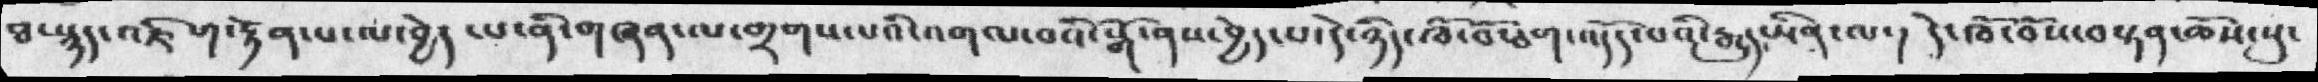ཐ སྙད་འཇིག་རྟེན་པ་ལ་བྱེད་པ་ནི་གཞན་ལ་གྲགས་པའི་འགལ་བའི་སྒོ་ནས་བྱེད་པ་དེ་ཉིད་ཁོ་བོ་ཅག་འདོད་པའི་རྒྱུ་ཡིན་ལ་།  དེ་ཁོ་བོས་བསྟན་ཆོས་སུ་
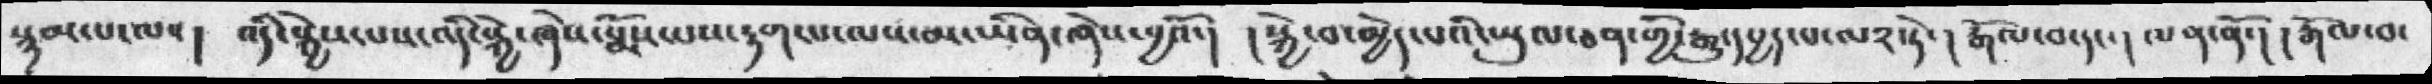སྙམ་པ་ལས།  འདི་སྐྱེས་པས་འདི་སྐྱེ་ཞེས་སྨོས་པས་རྟག་པ་ལས་མ་ཡིན་ཞེས་བྱའོ་།  ། སྐྱེ་བ་མྱེད་པའི་ཡུལ་ཅན་གྱི་རྒྱུ་དཔྱད་པ་ལ༢་ཏེ་།  རྒོལ་བ་དང་། ལན་ནོ་།  རྒོལ་བ་
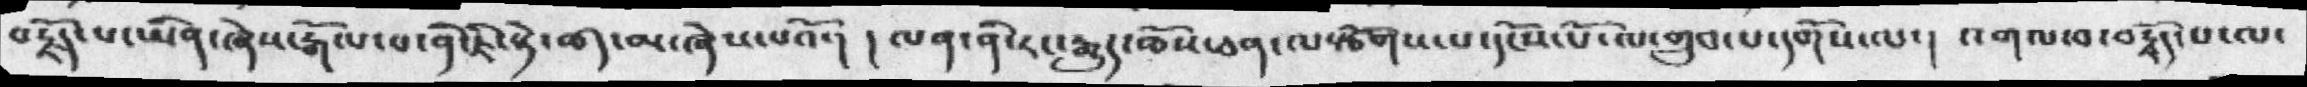བརྗོད་པ་ཡིན་ཞེས་རྒོལ་པ་ནི་ཇི་སྙེ་ཚད་མ་ཞེས་པའོ་།  ། ལན་ནི་རང་རྒྱུད་ཆོས་ཅན་ལསྩོགས་པ་དངོས་པོ་ལ་གྲུབ་པ་དགོས་ལ་།  འགལ་བ་བརྗོད་པ་ལ་
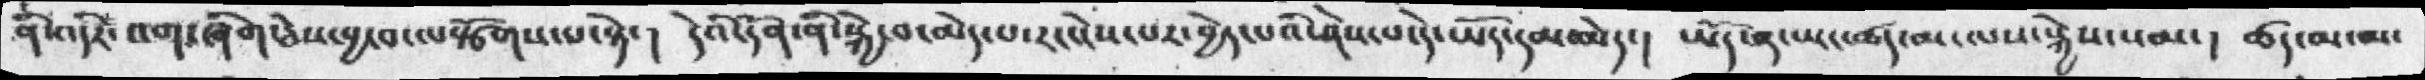ནི་འདིར་འག་ཞིག་ཅེས་བྱ་བ་ལསྩོགས་པ་སྟེ་། དེའི་དོན་ནི་སྐྱེ་བ་མེད་པ་དྲང་ངེས་པར་བྱེད་པའི་ཤེས་པ་དེ་ཡོད་དམ་མེད་།  ཡོད་ན་ཡང་ཚད་མ་ལས་སྐྱེས་སམ་། ཚད་མ་མ་
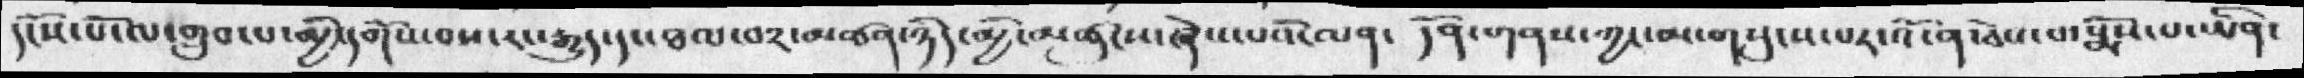དངོས་པོ་ལ་གྲུབ་པ་མྱི་དགོས་བས་རང་རྒྱུད་དང་ཐལ་བ༢་མཚན་ཉིད་མྱི་མཚུངས་ཞེས་པའི་ལན་ དོན་གནས་ཀྱང་མ་གསུངས་པར་འོ་ན་ཅེས་པ་སྨོས་པ་ཡིན་
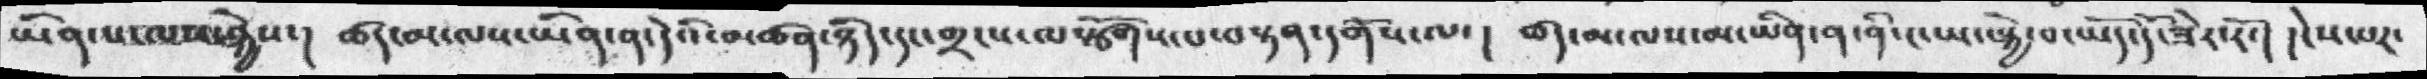ཡིན་པ་ལས་སྐྱེས་།  ཚད་མ་ལས་ཡིན་ན་དེའི་མཚན་ཉིད་དང་གྲངས་ལསྩོགས་པ་བསྟན་དགོས་ལ་། ཚད་མ་ལས་མ་ཡིན་ན་ནི་ང་ཡང་སྐྱེ་བ་ཡོད་དོ་ཟེར་རོ་། །ངེས་པར་
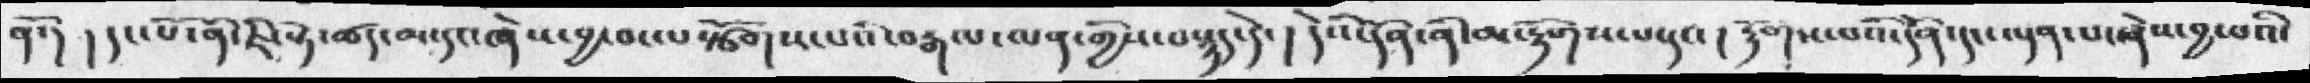ནོ་།  །དང་པོ་ནི་ཇི་སྟེ་ཚད་མ་དང་ཞེས་བྱ་བ་ལསྩོགས་པའི་བརྒལ་ལན་གྱིས་བསྙད་དེ་། དེའི་དོན་ནི་མ་རྟོགས་པ་དང་། རྟོགས་པའི་དོན་དང་ལྡན་པ་ཞེས་བྱ་པའི་
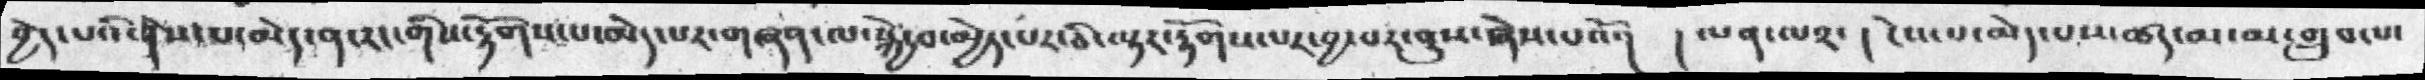བྱེད་པའི་ངེས་པ་མེད་ན་རང་གིས་རྟོགས་པ་མེད་པར་གཞན་ལ་སྐྱེ་བ་མྱེད་པར་ཅི་ལྟར་རྟོགས་པར་བྱ་བར་ནུས་ཞེས་པའོ་།  །ལན་༢ལ་། ངེས་པ་མེད་པས་ཚད་མ་མ་གྲུབ་པ་
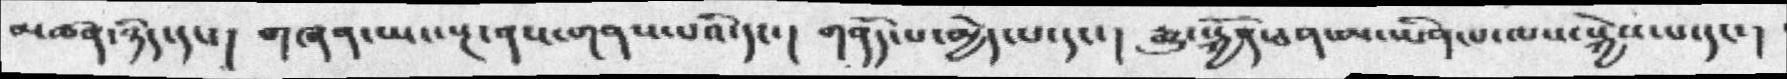མཚན་ཉིད་དང་། ། གཞན་ཡང་སྔ་ནས་གནས་པའི་དང་།  གནོད་པ་མྱེད་པ་དང་ ། རྒྱུ་སྐྱོན་ཅན་མ་ཡིན་པ་ལས་སྐྱེས་པ་དང་།
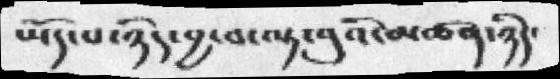ཡོད་པ་ཉིད་བྱ་བ་ལྟ་བུའི་མཚན་ཉིད་
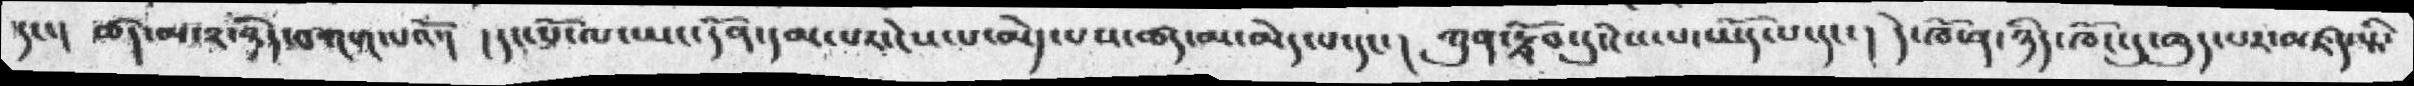དང་། ཚད་མ་༢་ཉིད་བཀག་པའོ་ །དང་པོ་ལ་ཡང་དོན་དམ་པར་ངེས་པ་མེད་པས་ཚད་མ་མེད་པ་དང་ ། ཀུན་སྫོབ་དུ་ངེས་པ་ཡོད་པ་དང་། དེ་ཁོ་ན་ཉིད་ཁོང་དུ་ཆུད་པར་མཛད་སྟི་
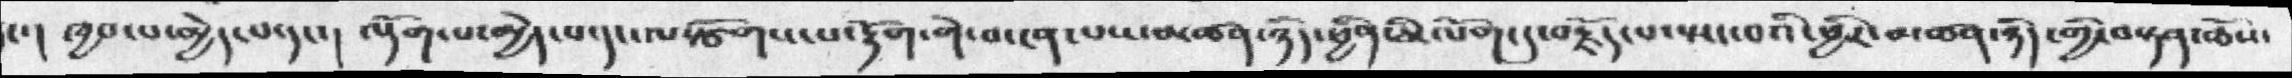ད་། ཁྱབ་པ་མྱེད་པ་དང་  ལྡོག་པ་མྱེད་པ་དང་ལསྩོགས་པ་རྟོག་གེ་བ་ངན་པས་མཚན་ཉིད་ཕྱིན་ཅི་ལོག་དུ་བརྗོད་པ་སྤང་བའི་ཕྱིར་མཚན་ཉིད་གྱི་བསྟན་ཆོས་
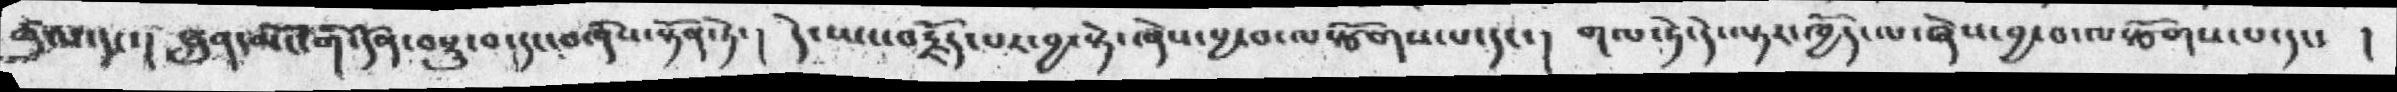ཚུལ་དང་། ཐཱུབ་མོང་གི་དོན་བསྡུ་བ་དང་བཞིས་སྟོན་ཏེ་། དེ་ཡང་བརྗོད་པར་བྱ་སྟེ་ཞེས་བྱ་བ་ལསྩོགས་པ་དང་། གལ་ཏེ་དེ་ལྟར་ཁྱོད་ལ་ཞེས་བྱ་བ་ལསྩོགས་པ་དང་ །
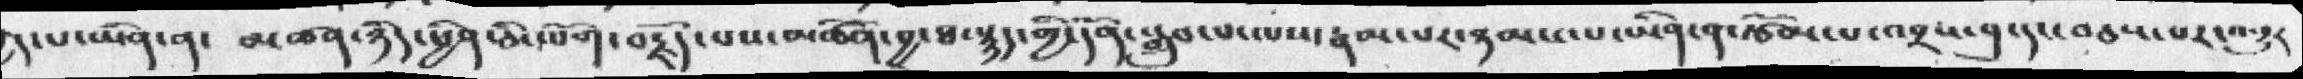ད་པ་ཡིན་ན་  མཚན་ཉིད་ཕྱིན་ཅི་ལོག་བརྗོད་པས་མཚོན་བྱ་ཐ་སྙད་གྱི་དོན་སྒྲུབ་པ་ལས་རྣམ་པར་ཉམས་པ་ཡིན་ན་རྩོམ་པ་འབྲས་བུ་དང་བཅས་པར་འགྱུར
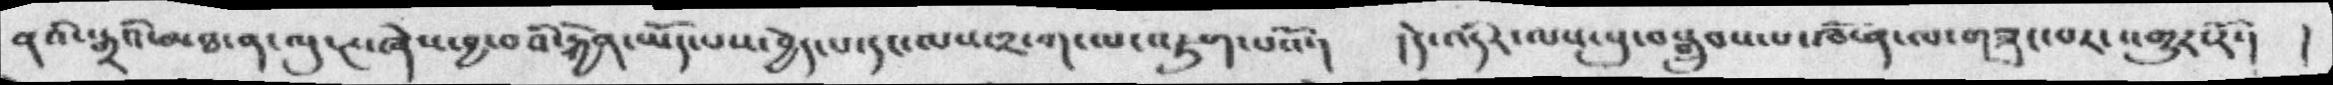ནའི་སྒྲའི་མཐ་ན་ལུ་ཊ་ཞེས་བྱ་བའི་རྐྱེན་ཡོད་པས་བྱེད་པ་དང་ལས་༢་ག་ལ་འཇུག་པའོ་ །  །དེ་འདིར་ལས་སུ་བསྒྲུབས་པ་ཁོ་ན་ལ་གཟུང་བར་འགྱུར་རོ་། །
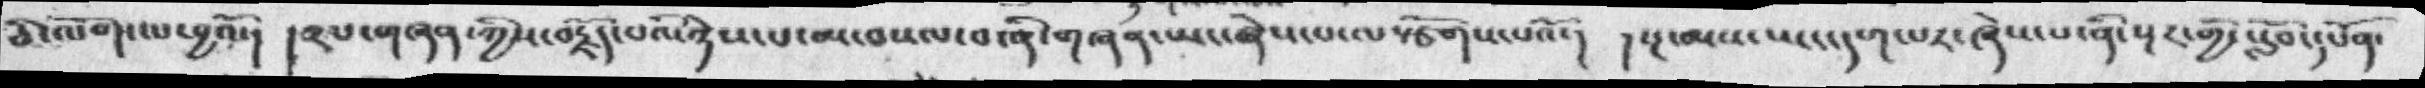ཅི་ལོག་པ་བྱའོ་། །༢པ་གཞན་ཀྱིས་བརྗོད་པའི་ཉེས་པ་མ་བསལ་ན་ནི་གཞན་ཡང་ཞེས་པ་ལསྩོགས་པའོ་།  །སྔ་མས་ཡང་དག་པར་ཞེས་པ་ནི་སྔར་གྱིས་སློབ་དཔོན་
